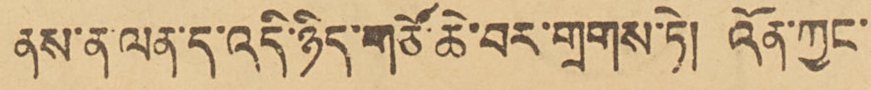ནས་ན་ལན་དུ་འདི་ཉིད་གཙོ་ཆེ་བར་གྲགས་ཏེ། འོན་ཀྱང་
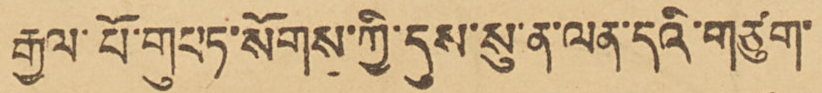རྒྱལ་པོ་གུཔཏ་སོགས་ཀྱི་དུས་སུ་ན་ལན་དའི་གཙུག་
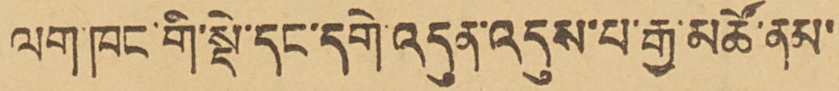ལག་ཁང་གི་སྡེ་དང་དགེ་འདུན་འདུས་པ་རྒྱ་མཚོ་ནམ་
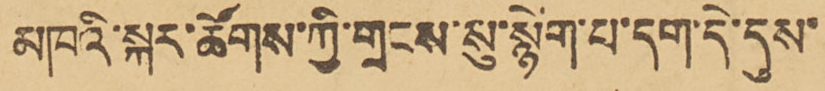མཁའི་སྐར་ཚོགས་ཀྱི་གྲངས་སུ་སྙེག་པ་དག་དེ་དུས་
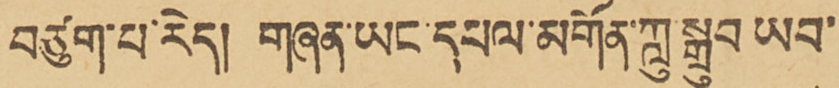བཙུག་པ་རེད། གཞན་ཡང་དཔལ་མགོན་ཀླུ་སྒྲུབ ཡབ་
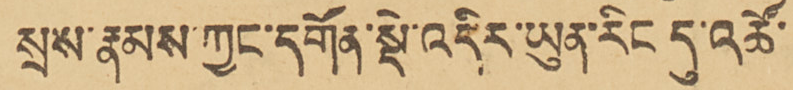སྲས་རྣམས་ཀྱང་དགོན་སྡེ་འདིར་ཡུན་རིང དུ་འཚོ་
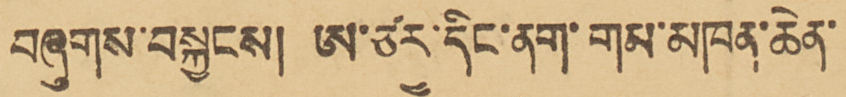བཞུགས་བསྐྱངས། ཨ་ཙརྱ་དིང་ནག་གམ་མཁན་ཆེན་
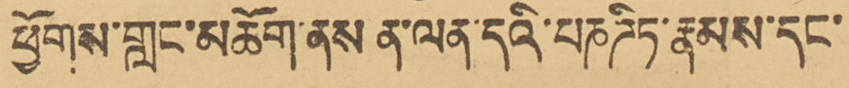ཕྱོགས་གླང་མཆོག་ནས ན་ལན་དའི་པཎཌིཏ་རྣམས་དང་
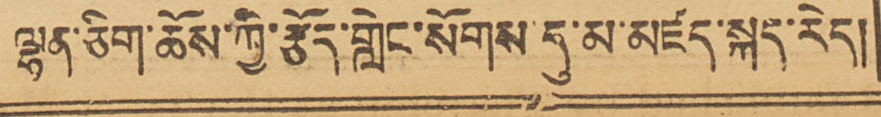ལྷན་ཅིག་ཆོས་ཀྱི་རྩོད་གླེང་སོགས་དུ་མ་མཛད་སྐད་རེད།
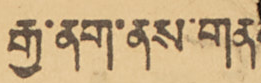རྒྱ་ནག་ནས་གན
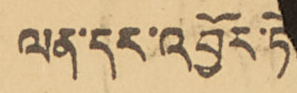ལན་དར་འབྱོར་ཏེ
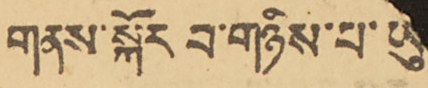གནས་སྐོར བ་གཉིས་པ་ཡུ
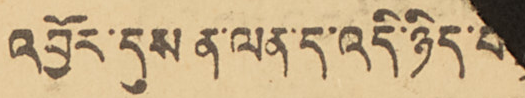འབྱོར་དུས ན་ལན་དུ་འདི་ཉིད་པ
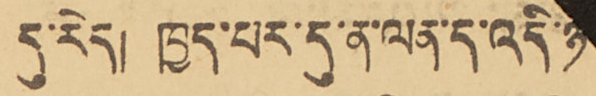དུ་རེད། ཁྱད་པར་དུ་ན་ལན་དུ་འདི་ཉི
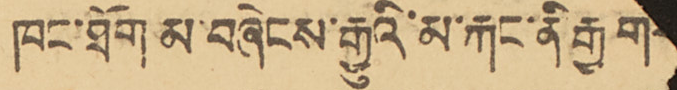ཁང་ཐོག མ་བཞེངས་རྒྱུའི་མ་རྐང་ནི རྒྱ ག
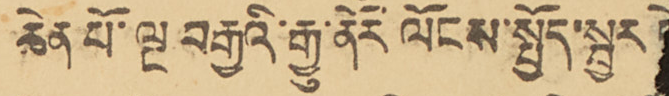ཆེན པོ་ལྔ བརྒྱའི་རྒྱུ་ནོར ལོངས་སྤྱོད་སྦྱར
